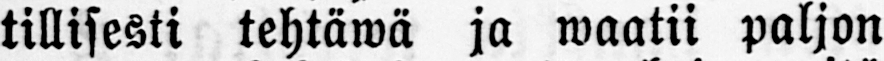tillisesti tehtäwä ja waatii paljon
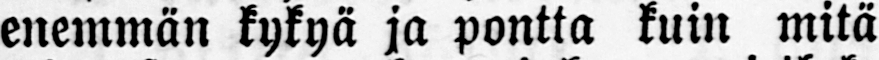enemmän kykyä ja pontta kuin mitä
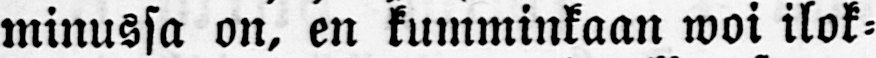minussa on, en kumminkaan woi ilok-
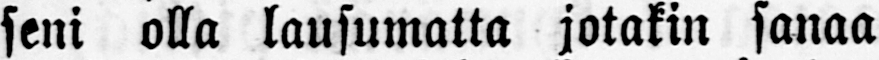seni olla lausumatta jotakin sanaa
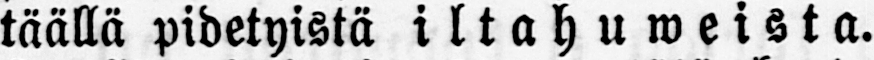täällä pidetyistä iltahuweista.
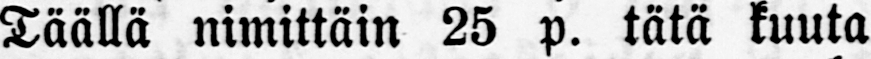Täällä nimittäin 25 p. tätä kuuta
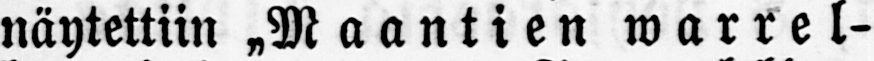näytettiin Maantien warrel-
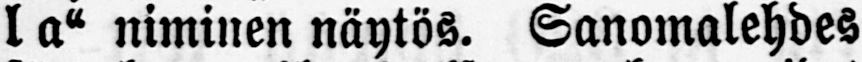la" niminen näytös. Sanomalehdes
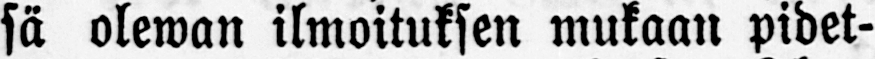sä olewan ilmoituksen mukaan pidet-
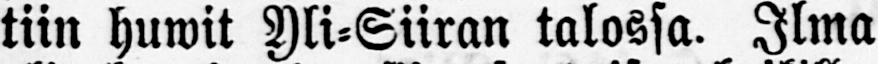tiin huwit Yli-Siiran talossa. Ilma
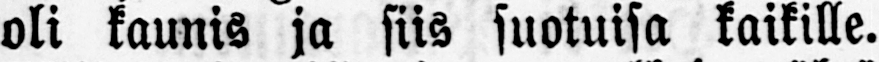oli kaunis ja siis suotuisa kaikille.
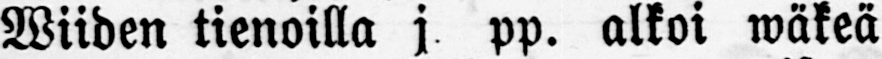Wiiden tienoilla j pp. alkoi wäkeä
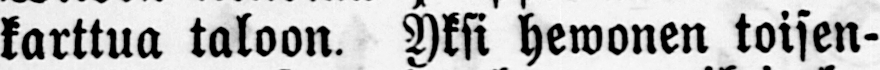karttua taloon. Yksi hewonen toisen-
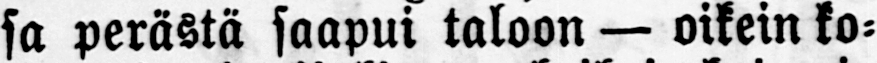sa perästä saapui taloon — oikein ko-
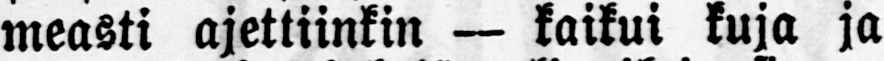measti ajettiinkin — kaikui kuja ja
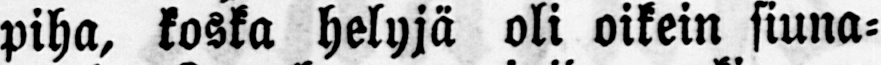piha, koska helyjä oli oikein siuna-
